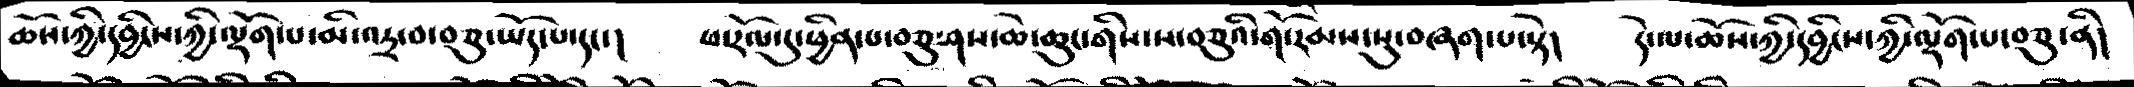ཆོས་ཀྱི་དབྱིངས་ཀྱི་ལྡོག་པ་མི་འདྲ་བ་བཅུ་ཡོད་པ་དང་།  ཕ་རོལ་དུ་ཕྱིན་པ་བཅུ་ཤས་ཆེ་ཆུང་གིས་ས་བཅུའི་གོ་རིམས་སུ་བཞག་པ་སྟེ།  དེ་ལ་ཆོས་ཀྱི་དབྱིངས་ཀྱི་ལྡོག་པ་བཅུ་ནི།
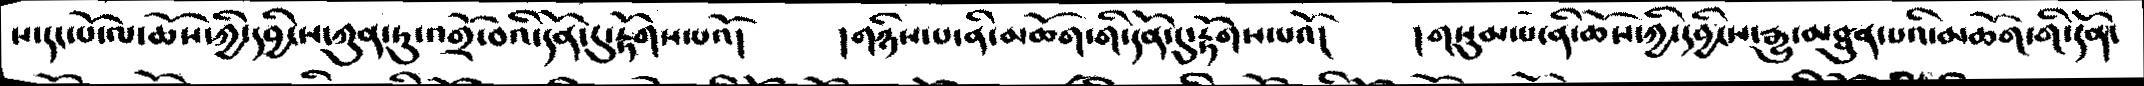ས་དང་པོ་ལ་ཆོས་ཀྱི་དབྱིངས་ཀུན་ཏུ་འགྲོ་བའི་དོན་དུ་རྟོགས་པའོ།    །གཉིས་པ་ནི་མཆོག་གི་དོན་དུ་རྟོགས་པའོ།   །གསུམ་པ་ནི་ཆོས་ཀྱི་དབྱིངས་རྒྱུ་མཐུན་པའི་མཆོག་གི་དོན་
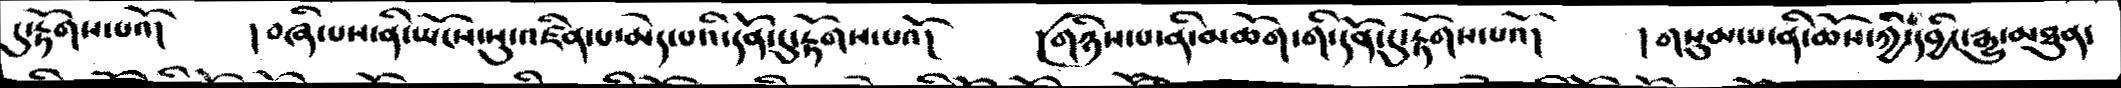དུ་རྟོགས་པའོ།    །བཞི་པས་ནི་ཡོངས་སུ་འཛིན་པ་མེད་པའི་དོན་དུ་རྟོགས་པའོ།   །གཉིས་པ་ནི་མཆོག་གི་དོན་དུ་རྟོགས་པའོ།    །གསུམ་པ་ནི་ཆོས་ཀྱི་དབྱིང་རྒྱུ་མཐུན་
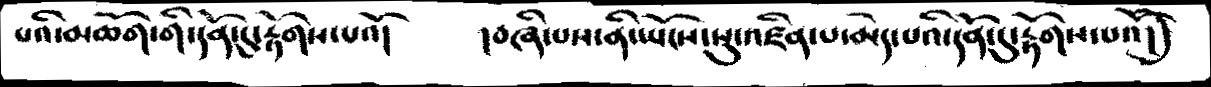པའི་མཆོག་གི་དོན་དུ་རྟོགས་པའོ།    བཞི་པས་ནི་ཡོངས་སུ་འཛིན་པ་མེད་པའི་དོན་དུ་རྟོགས་པའོ།
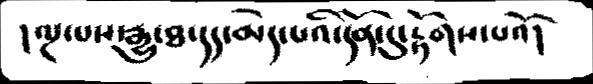།ལྔ་པས་རྒྱུ་ཐ་དད་མེད་པའི་དོན་དུ་རྟོགས་པའོ།
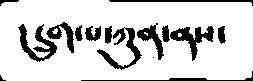། དྲུག་པ་ཀུན་ནས་
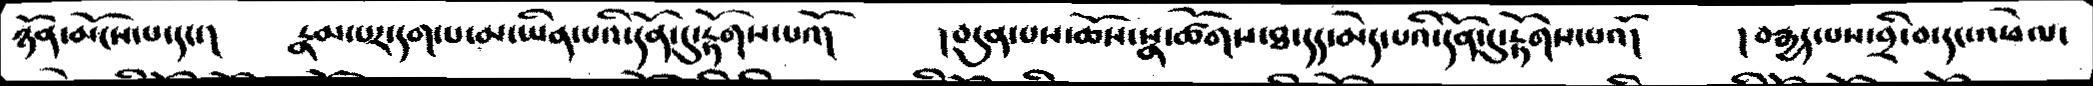ཉོན་མོངས་དང་།   རྣམ་པར་དག་པ་མ་ཡིན་པའི་དོན་དུ་རྟོགས་པའོ།   །བདུན་པས་ཆོས་སྣ་ཚོགས་ཐ་དད་མེད་པའི་དོན་དུ་རྟོགས་པའོ།   །བརྒྱད་པས་བྲི་བ་དང་འཕེལ་
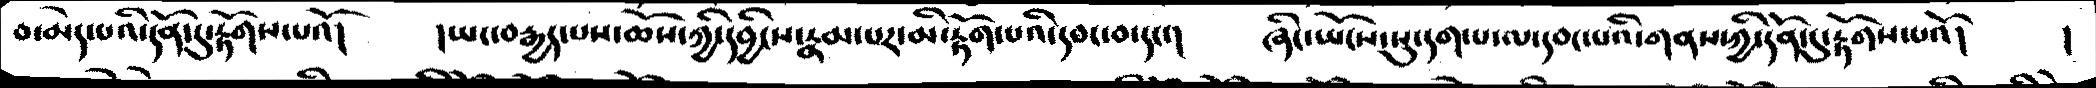བ་མེད་པའི་དོན་དུ་རྟོགས་པའོ།   །ཡང་བརྒྱད་པས་ཆོས་ཀྱི་དབྱིངས་རྣམ་པར་མི་རྟོག་པའི་དབང་བ་དང་།   ཞིང་ཡོངས་སུ་དག་པ་ལ་དབང་པའི་གནས་ཀྱི་དོན་དུ་རྟོགས་པའོ།  །
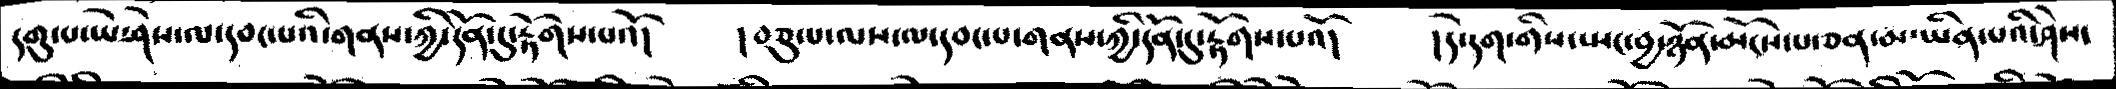དགུ་པ་ཡེ་ཤེས་ལ་དབང་པའི་གནས་ཀྱི་དོན་དུ་རྟོགས་པའོ།   །བཅུ་པ་ལས་ལ་དབང་པ་གནས་ཀྱི་དོན་དུ་རྟོགས་པའོ།   །དེ་དག་གིས་སྤང་བྱ་ཉོན་མོངས་པ་ཅན་མ་ཡིན་པའི་ཤེས་
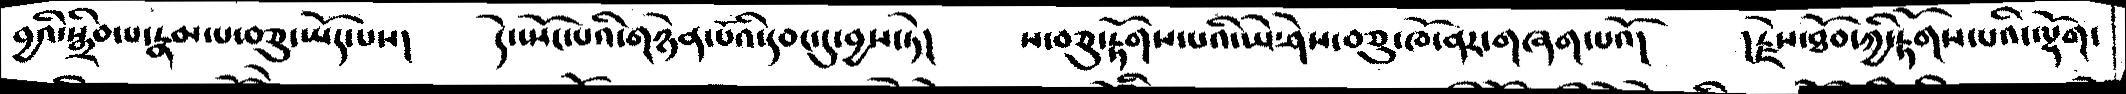བྱའི་སྒྲིབ་པ་རྣམ་པ་བཅུ་ཡོད་པས།   དེ་སྤོང་པའི་གཉེན་པོའི་དབང་དུ་བྱས་ཏེ།   ས་བཅུ་རྟོགས་པའི་ཡེ་ཤེས་བཅུ་ཁོ་ནར་གཞག་པའོ།   །རྗེས་ཐོབ་ཀྱི་རྟོགས་པའི་ལྡོག་
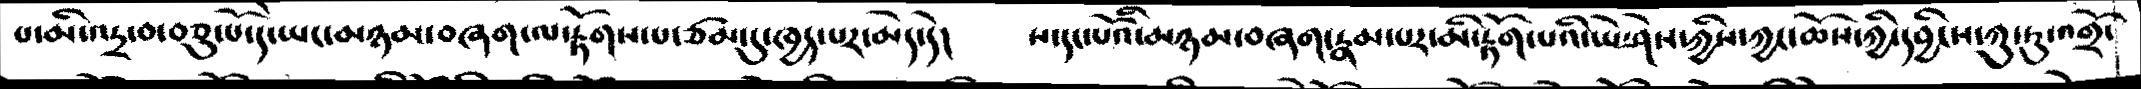པ་མི་འདྲ་བ་བཅུ་པོ་དེ་ཡང་མཉམ་བཞག་ལ་རྟོགས་པ་ཙམ་དུ་ཁྱད་པར་མེད་དེ།   ས་དང་པོའི་མཉམ་བཞག་རྣམ་པར་མི་རྟོག་པའི་ཡེ་ཤེས་ཀྱིས་ཀྱང་ཆོས་ཀྱི་དབྱིངས་ཀུ་ཏུ་འགྲོ་
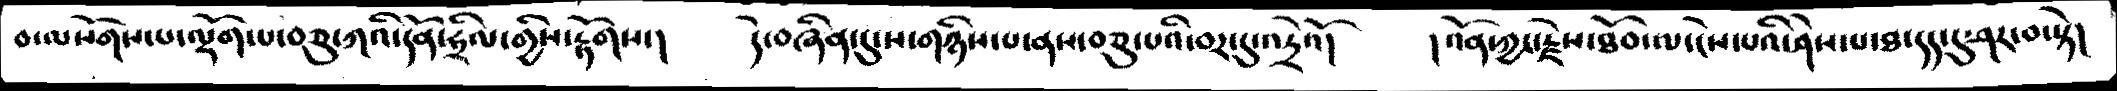བ་ལ་སོགས་པ་ལྡོག་པ་བཅུ་ཀའི་དོན་ཧྲིལ་གྱིས་རྟོགས་།  དེ་བཞིན་དུ་ས་གཉིས་པ་ནས་བཅུ་པའི་བར་དུ་འདྲེའོ།   །འོན་ཀྱང་རྗེས་ཐོབ་ལ་ངེས་པའི་ཤེས་པ་ཐ་དད་དུ་ཤར་བ་སྟེ།
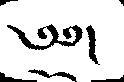༄༅།
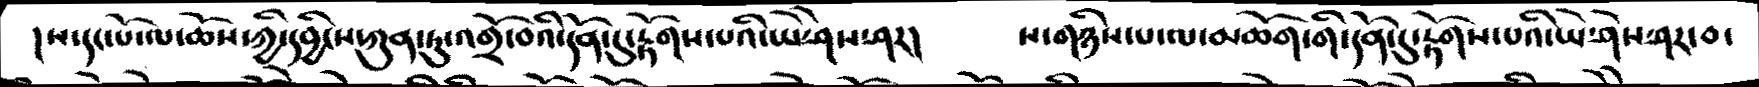།ས་དང་པོ་ལ་ཆོས་ཀྱི་དབྱིངས་ཀུན་ཏུ་འགྲོ་བའི་དོན་དུ་རྟོགས་པའི་ཡེ་ཤེས་ཤར།   ས་གཉིས་པ་ལ་མཆོག་གི་དོན་དུ་རྟོགས་པའི་ཡེ་ཤེས་ཤར་བ་
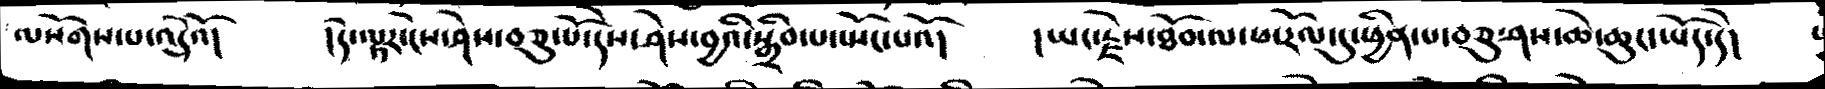ལསོགས་པ་འདྲེའོ།    །དེ་ལྟར་ངེས་ཤེས་བཅུ་པོ་དེས་ཤེས་བྱའི་སྒྲིབ་པ་སྤོང་པའོ།    །ཡང་རྗེས་ཐོབ་ལ་ཕ་རོལ་དུ་ཕྱིན་པ་བཅུ་ཤས་ཆེ་ཆུང་ཡོད་དེ།
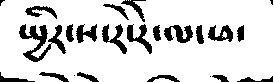སྤྱིར་ས་རེ་རེ་ལ་ཕ་
